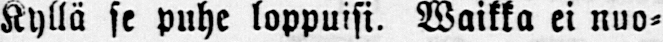Kyllä se puhe loppuisi. Waikka ei nuo-
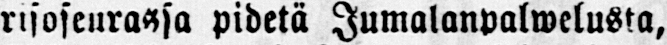risoseurassa pidetä Jumalanpalwelusta,
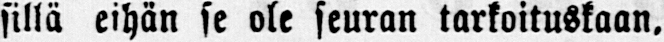sillä eihän se ole seuran tarkoituskaan,
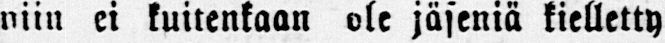niin ei kuitenkaan ole jäseniä kielletty
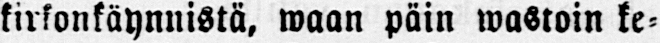kirkonkäynnistä, waan päin wastoin ke-
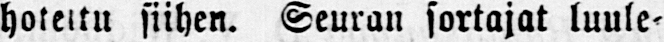hoteltu siihen. Seuran sortajat luule-
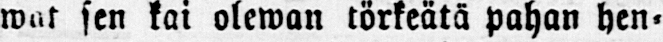wat sen kai olewan törkeätä pahan hen-
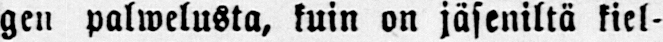gen palwelusta, kuin on jäseniltä kiel-
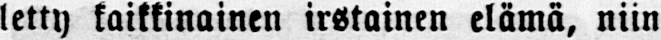letty kaikkinainen irstainen elämä, niin
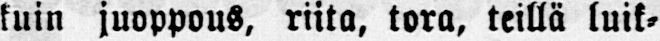kuin juoppous, riita, tora, teillä luik-
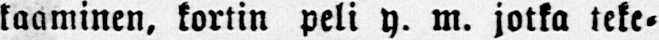kaaminen. kortin peli y. m. jotka teke-
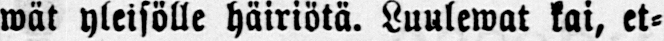wät yleisölle häiriötä. Luulewat kai, et-
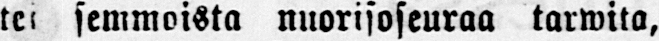tei semmoista nuorisoseuraa tarwita,
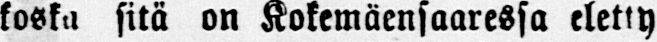koska sitä on Kokemäensaaressa eletty
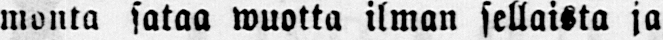monta sataa wuotta ilman sellaista ja
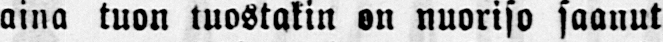aina tuon tuostakin on nuoriso saanut
